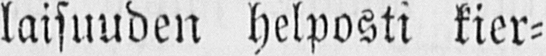laisuuden helposti kier-
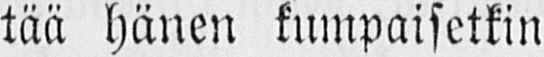tää hänen kumpaisetkin
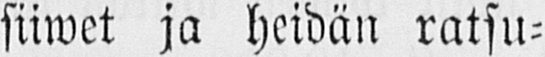siiwet ja heidän ratsu-
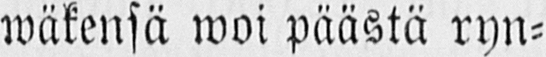wäkensä woi päästä ryn-
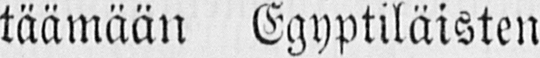täämään Egyptiläisten
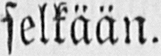selkään.
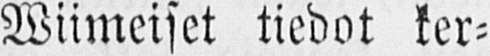Wiimeiset tiedot ker-
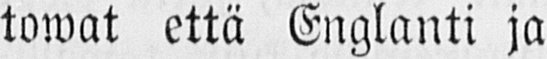towat että Englanti ja
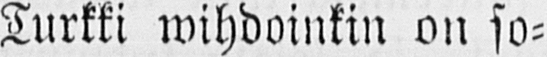Turkki wihdoinkin on so-
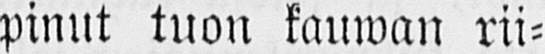pinut tuon kauwan rii-
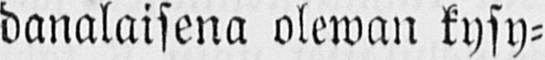danalaisena olewan kysy-
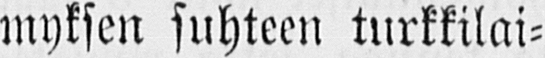myksen suhteen turkkilai-
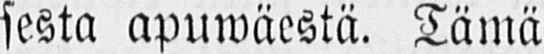sesta apuwäestä. Tämä
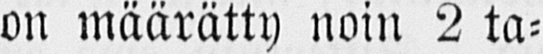on määrätty noin 2 ta-
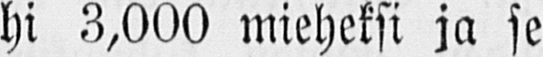hi 3,000 mieheksi ja se
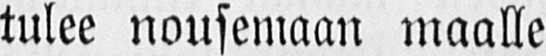tulee nousemaan maalle
